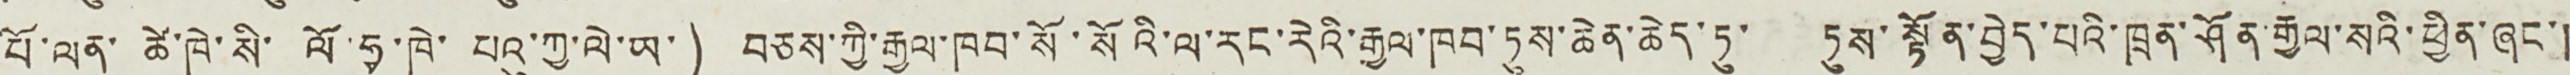པོ་ལན་ ཚེ་ཁེ་སི་ ལོ་ཧྭ་ཁེ་ པའུ་ཀྱ་ལེ་ཡ་) བཅས་ཀྱི་རྒྱལ་ཁབ་སོ་སོའི་ལ་རང་རེའི་རྒྱལ་ཁབ་ཏུས་ཆེན་ཆེད་ཏུ་ ཏུས་སྟོན་བྱེད་པའི་ཁྲན་ཤོན རྒྱལ་སའི་ཕྱིན་ཞང་།
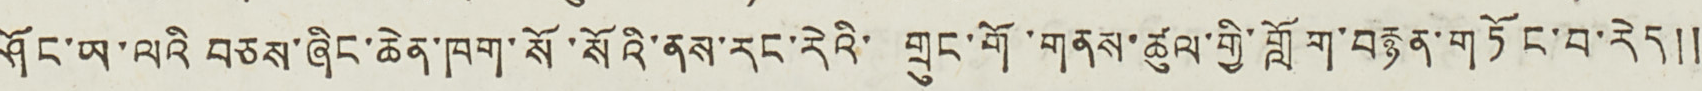ཤོང་ཡ་ལའི བཅས་ཞིང་ཆེན་ཁག་སོ་སོའི་ནས་རང་རེའི་ གྲུང་གོ་གནས་ཚུལ་གྱི་གློག་བརྙན་གཏོང་བ་རེད༎
